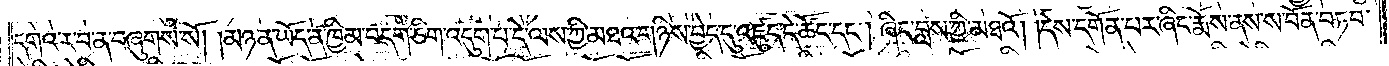དགའ་ར་བ་ན་བཞུགས་སོ། །མཉན་ཡོད་ན་ཁྱིམ་བདག་ཅིག་འདུག་པ་དེ་ལས་ཀྱི་མཐའ་གཉིས་བྱེད་དུ་འཛུད་དེ་ཚོང་དང༌། ཞིང་བླས་ཀྱི་མཐའོ། །དེས་དགོན་པར་ཞིང་རྨོས་ནས་ས་བོན་བཏབ་
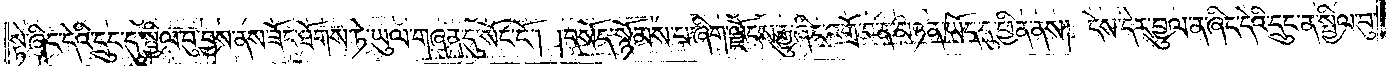སྟེ་ཞིང་དེའི་དྲུང་དུ་སྤྱིལ་བུ་བྱས་ནས་ཟོང་ཐོགས་ཏེ་ཡུལ་གཞན་དུ་སོང་ངོ༌། །བསོད་སྙོམས་པ་ཞིག་ལྗོངས་རྒྱུ་ཞིང་འགྲོ་བ་ན་མཉན་ཡོད་དུ་ཕྱིན་ནས། དེས་དེར་བྱུལ་ན་ཞིང་དེའི་དྲུང་ན་སྤྱིལ་བུ་
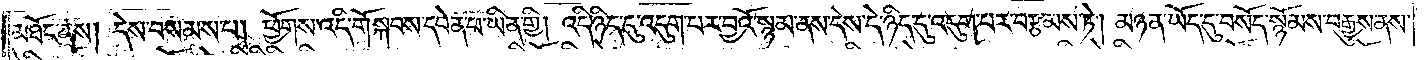མཐོང་ནས། དེས་བསམས་པ། ཕྱོགས་འདི་གོ་སྐབས་དབེན་པ་ཡིན་གྱི། འདི་ཉིད་དུ་འདུག་པར་བྱའོ་སྙམ་ནས་དེས་དེ་ཉིད་དུ་འདུག་པར་བརྩམས་ཏེ། མཉན་ཡོད་དུ་བསོད་སྙོམས་བརྒྱུས་ནས་
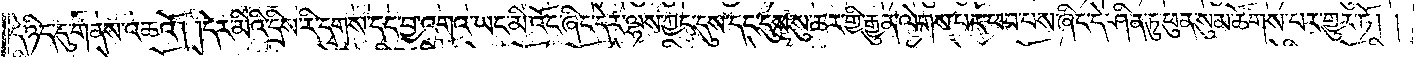དེ་ཉིད་དུ་གནས་འཆའོ། །དེར་མིའི་དྲིས་རི་དྭགས་དང་བྱ་འགའ་ཡང་མི་འོང་ཞིང་དེར་ལྷས་ཀྱང་དུས་དང་དུས་སུ་ཆར་གྱི་རྒྱུན་ལེགས་པར་ཕབ་པས་ཞིང་དེ་ཤིན་ཏུ་ཕུན་སུམ་ཚོགས་པར་གྱུར་ཏོ། །
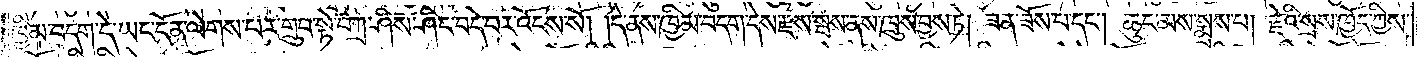ཁྱིམ་བདག་དེ་ཡང་དོན་ལེགས་པར་གྲུབ་སྟེ་བཀྲ་ཤིས་ཤིང་བདེ་བར་འོངས་སོ། །དེ་ནས་ཁྱིམ་བདག་དེས་རྫས་སྦས་ནས་ཁྲུས་བྱས་ཏེ། ཟན་ཟོས་པ་དང༌། ཆུང་མས་སྨྲས་པ། རྗེའི་སྲས་ཁྱོད་ཀྱིས་
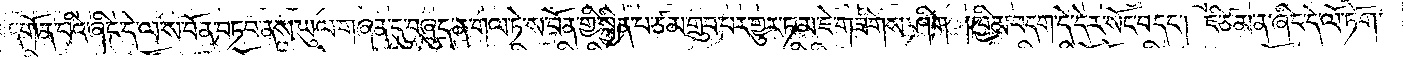དགོན་པའི་ཞིང་དེ་ལ་ས་བོན་བཏབ་ནས་ཡུལ་གཞན་དུ་བཞུད་ན་གལ་ཏེ་ས་བོན་གྱི་སྐྱིན་པ་ཙམ་གྲུབ་པར་གྱུར་ཏམ་ཇེ་གཟིགས་ཤིག །ཁྱིམ་བདག་དེ་དེར་སོང་བ་དང༌། ཇི་ཙམ་ན་ཞིང་དེ་ལོ་ཏོག་
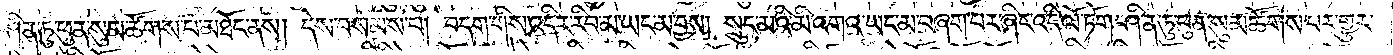ཤིན་ཏུ་ཕུན་སུམ་ཚོགས་པ་མཐོང་ནས། དེས་བསམས་པ། བདག་གིས་འདིར་རིབ་མ་ཡང་མ་བྱས། སྲུང་མའི་མི་འགའ་ཡང་མ་བཞག་པར་ཞིང་འདི་ལོ་ཏོག་ཤིན་ཏུ་ཕུན་སུམ་ཚོགས་པར་གྱུར་
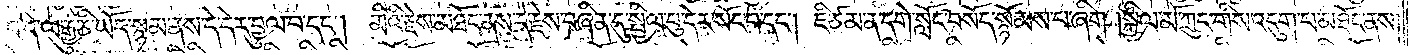བ་དེ་ལ་རྒྱུ་ཅི་ཡོད་སྙམ་ནས་དེ་དེར་བྱུལ་བ་དང༌། མིའི་རྗེས་མཐོང་ནས་དེ་རྗེས་བཞིན་དུ་སྤྱིལ་བུ་དེར་སོང་བ་དང༌། ཇི་ཙམ་ན་དགེ་སློང་བསོད་སྙོམས་པ་ཞིག །སྐྱིལ་མོ་ཀྲུང་གིས་འདུག་པ་མཐོང་ནས།
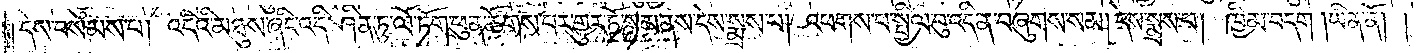དེས་བསམས་པ། འདིའི་མཐུས་ཞིང་འདི་ཤིན་ཏུ་ལོ་ཏོག་ཕུན་ཚོགས་པར་གྱུར་ཏོ་སྙམ་ནས་དེས་སྨྲས་པ། འཕགས་པ་སྤྱིལ་བུ་འདི་ན་བཞུགས་སམ། དེས་སྨྲས་པ། ཁྱིམ་བདག །ཡིན་ནོ། །
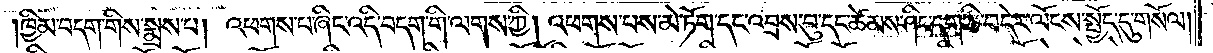ཁྱིམ་བདག་གིས་སྨྲས་པ། འཕགས་པ་ཞིང་འདི་བདག་གི་ལགས་ཀྱི། འཕགས་པས་མེ་ཏོག་དང་འབྲས་བུ་དང་ཚེམས་ཤིང་དག་ཅི་བ་དེར་ལོངས་སྤྱོད་དུ་གསོལ།
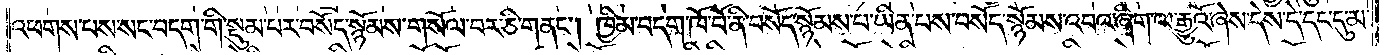འཕགས་པས་སང་བདག་གི་སྡུམ་པར་བསོད་སྙོམས་གསོལ་བར་ཅི་གནང༌། ཁྱིམ་བདག་ཁོ་བོ་ནི་བསོད་སྙོམས་པ་ཡིན་པས་བསོད་སྙོམས་འབའ་ཞིག་ལ་རྒྱུའོ་ཞེས་དེས་དེ་དང་དུ་མ་
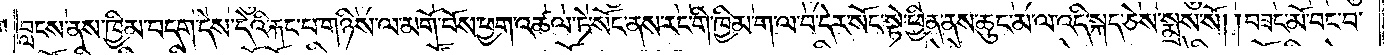བླངས་ནས་ཁྱིམ་བདག་དེས་དེའི་རྐང་པ་གཉིས་ལ་མགོ་བོས་ཕྱག་འཚལ་ཏེ་སོང་ནས་རང་གི་ཁྱིམ་ག་ལ་བ་དེར་སོང་སྟེ་ཕྱིན་ནས་ཆུང་མ་ལ་འདི་སྐད་ཅེས་སྨྲས་སོ། །བཟང་མོ་བང་བ་
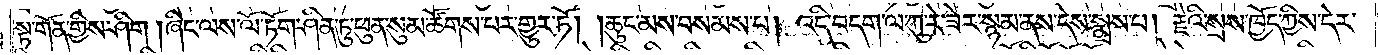སྟ་གོན་གྱིས་ཤིག །ཞིང་ལས་ལོ་ཏོག་ཤིན་ཏུ་ཕུན་སུམ་ཚོགས་པར་གྱུར་ཏོ། །ཆུང་མས་བསམས་པ། འདི་བདག་ལ་ཀུ་རེ་ཟེར་སྙམ་ནས་དེས་སྨྲས་པ། རྗེའི་སྨྲས་ཁྱོད་ཀྱིས་དེར་
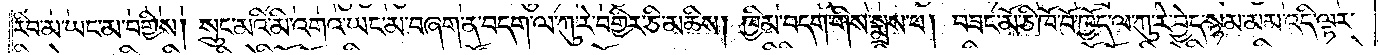རིབ་མ་ཡང་མ་བགྱིས། སྲུང་མའི་མི་འགའ་ཡང་མ་བཞག་ན་བདག་ལ་ཀུ་རེ་བགྱིར་ཅི་མཆིས། ཁྱིམ་བདག་གིས་སྨྲས་པ། བཟང་མོ་ཅི་ཁོ་བོ་ཁྱོད་ལ་ཀུ་རེ་བྱེད་སྙམ་མམ་འདི་ལྟར་
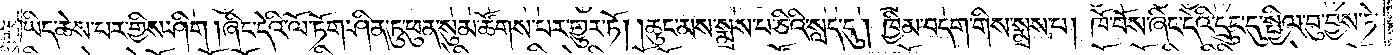ཡིད་ཆེས་པར་གྱིས་ཤིག །ཞིང་དེའི་ལོ་ཏོག་ཤིན་ཏུ་ཕུན་སུམ་ཚོགས་པར་གྱུར་ཏོ། །ཆུང་མས་སྨྲས་པ་ཅིའི་སླད་དུ། ཁྱིམ་བདག་གིས་སྨྲས་པ། ཁོ་བོས་ཞིང་དེའི་དྲུང་དུ་སྤྱིལ་བུ་བྱས་ཏེ་
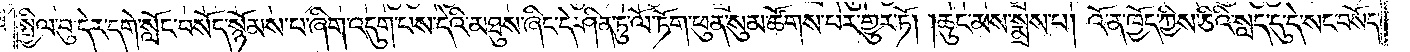སྤྱིལ་བུ་དེར་དགེ་སློང་བསོད་སྙོམས་པ་ཞིག་འདུག་པས་དེའི་མཐུས་ཞིང་དེ་ཤིན་ཏུ་ལོ་ཏོག་ཕུན་སུམ་ཚོགས་པར་གྱུར་ཏོ། །ཆུང་མས་སྨྲས་པ། འོ་ན་ཁྱོད་ཀྱིས་ཅིའི་སླད་དུ་དེ་སང་བསོད་
